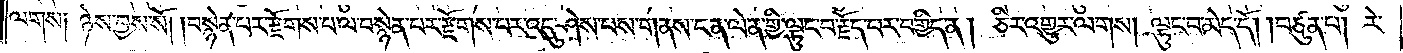ལགས༑ ཉེས་བྱས་སོ། །བསྙེན་པར་རྫོགས་པ་ལ་བསྙེན་པར་རྫོགས་པར་འདུ་ཤེས་པས་གནས་ངན་ལེན་གྱི་ལྟུང་བ་རྗོད་པར་བགྱིད་ན། ཅིར་འགྱུར་ལགས། ལྟུང་བ་མེད་དོ། །བཙུན་པ། རེ་
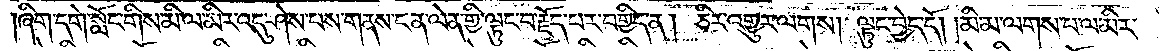།ཞིག་དགེ་སློང་གིས་མི་ལ་མིར་འདུ་ཤེས་པས་གནས་ངན་ལེན་གྱི་ལྟུང་བ་རྗོད་པར་བགྱིད་ན། ཅིར་འགྱུར་ལགས། ལྟུང་བྱེད་དོ། །མི་མ་ལགས་པ་ལ་མིར་
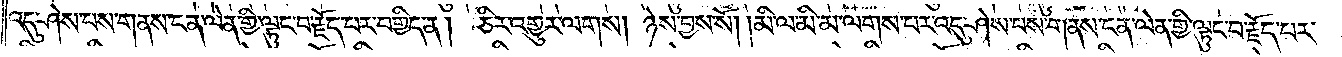འདུ་ཤེས་པས་གནས་ངན་ལེན་གྱི་ལྟུང་བ་རྗོད་པར་བགྱིད་ན། ཅིར་འགྱུར་ལགས། ཉེས་བྱས་སོ། །མི་ལ་མི་མ་ལགས་པར་འདུ་ཤེས་པས་གནས་ངན་ལེན་གྱི་ལྟུང་བ་རྗོད་པར་
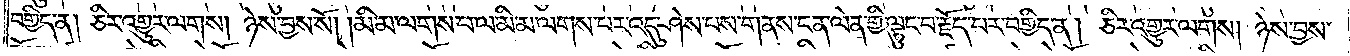བགྱིད་ན། ཅིར་འགྱུར་ལགས། ཉེས་བྱས་སོ། །མི་མ་ལགས་པ་ལ་མི་མ་ལགས་པར་འདུ་ཤེས་པས་གནས་ངན་ལེན་གྱི་ལྟུང་བ་རྗོད་པར་བགྱིད་ན། ཅིར་འགྱུར་ལགས། ཉེས་བྱས་
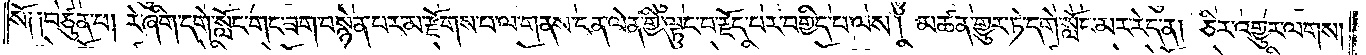སོ༑ ༑བཙུན་པ། རེ་ཞིག་དགེ་སློང་གང་ཟག་བསྙེན་པར་མ་རྫོགས་པ་ལ་གནས་ངན་ལེན་གྱི་ལྟུང་བ་རྗོད་པར་བགྱིད་པ་ལས། མཚན་གྱུར་ཏེ་དགེ་སློང་མར་རེད་ན། ཅིར་འགྱུར་ལགས།
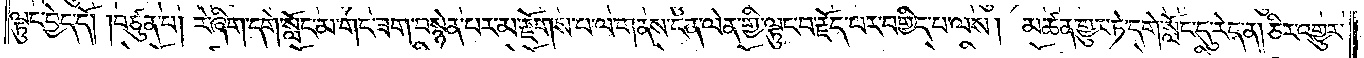ལྟུང་བྱེད་དོ། །བཙུན་པ། རེ་ཞིག་དགེ་སློང་མ་གང་ཟག་བསྙེན་པར་མ་རྫོགས་པ་ལ་གནས་ངན་ལེན་གྱི་ལྟུང་བ་རྗོད་པར་བགྱིད་པ་ལས། མཚན་རྒྱུར་ཏེ་དགེ་སློང་དུ་རེད་ན། ཅིར་འགྱུར་
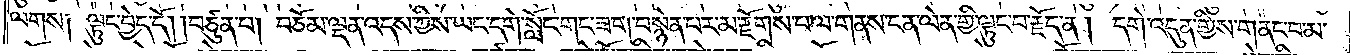ལགས༑ ལྟུང་བྱེད་དོ། །བཙུན་པ། བཅོམ་ལྡན་འདས་ཀྱིས་ཡང་དགེ་སློང་གང་ཟག་བསྙེན་པར་མ་རྫོགས་པ་ལ་གནས་ངན་ལེན་གྱི་ལྟུང་བ་རྗོད་ན། དགེ་འདུན་གྱིས་གནང་བ་མ་
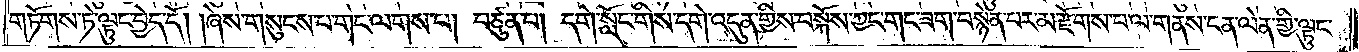གཏོགས་ཏེ་ལྟུང་བྱེད་དོ། །ཞེས་གསུངས་པ་གང་ལགས་པ། བཙུན་པ། དགེ་སློང་གིས་དགེ་འདུན་གྱིས་བསྐོས་ཀྱང་གང་ཟག་བསྙེན་པར་མ་རྫོགས་པ་ལ་གནས་ངན་ལེན་གྱི་ལྟུང་
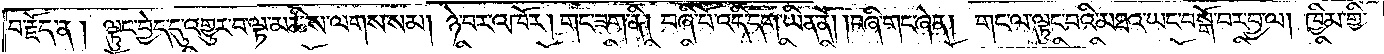བ་རྗོད་ན། ལྟུང་བྱེད་དུ་འགྱུར་བ་ལྟ་མཆིས་ལགས་སམ། ཉེ་བར་འཁོར། གང་ཟག་ནི། བཞི་པོ་འདི་དག་ཡིན་ནོ། །བཞི་གང་ཞེ་ན། གང་ལ་ལྟུང་བའི་མཐའ་ཡང་བསྒོ་བར་བྱ་ལ། ཁྱིམ་གྱི་
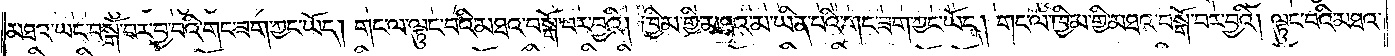མཐའ་ཡང་བསྒོ་བར་བྱ་བའི་གང་ཟག་ཀྱང་ཡོད། གང་ལ་ལྟུང་བའི་མཐའ་བསྒོ་བར་བྱའི། ཁྱིམ་གྱི་མཐའ་མ་ཡིན་པའི་གང་ཟག་ཀྱང་ཡོད། གང་ལ་ཁྱིམ་གྱི་མཐའ་བསྒོ་བར་བྱའི། ལྟུང་བའི་མཐའ་
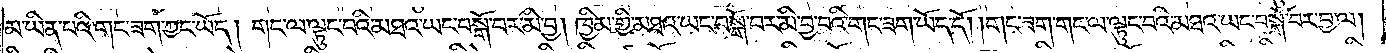མ་ཡིན་པའི་གང་ཟག་ཀྱང་ཡོད། གང་ལ་ལྟུང་བའི་མཐའ་ཡང་བསྒོ་བར་མི་བྱ། ཁྱིམ་གྱི་མཐའ་ཡང་བསྒོ་བར་མི་བྱ་བའི་གང་ཟག་ཡོད་དོ། །གང་ཟག་གང་ལ་ལྟུང་བའི་མཐའ་ཡང་བསྒོ་བར་བྱ་ལ།
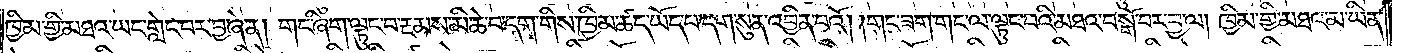ཁྱིམ་གྱི་མཐའ་ཡང་གླེང་བར་བྱ་ཞེ་ན། གང་ཞིག་ལྟུང་བ་རྔམས་མི་ཆེ་བ་དག་གིས་ཁྱིམ་ཚད་ཡོད་པ་དག་སུན་འབྱིན་པའོ། །གང་ཟག་གང་ལ་ལྟུང་བའི་མཐའ་བསྒོ་བར་བྱ་ལ། ཁྱིམ་གྱི་མཐའ་མ་ཡིན་
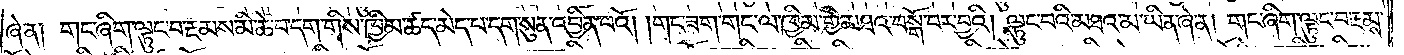ཞེ་ན། གང་ཞིག་ལྟུང་བ་རྔམས་མི་ཆེ་བ་དག་གིས་ཁྱིམ་ཚད་མེད་པ་དག་སུན་འབྱིན་པའོ། །གང་ཟག་གང་ལ་ཁྱིམ་གྱི་མཐའ་བསྒོ་བར་བྱའི། ལྟུང་བའི་མཐའ་མ་ཡིན་ཞེ་ན། གང་ཞིག་ལྟུང་བ་རྔམས་
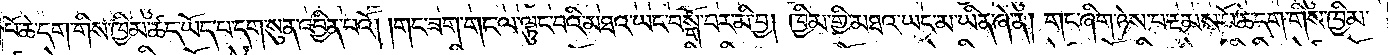པོ་ཆེ་དག་གིས་ཁྱིམ་ཚད་ཡོད་པ་དག་སུན་འབྱིན་པའོ། །གང་ཟག་གང་ལ་ལྟུང་བའི་མཐའ་ཡང་བསྒོ་བར་མི་བྱ། ཁྱིམ་གྱི་མཐའ་ཡང་མ་ཡིན་ཞེ་ན། གང་ཞིག་ཉེས་པ་རྔམས་པོ་ཆེ་དག་གིས་ཁྱིམ་
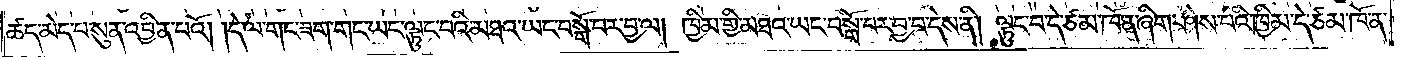ཚད་མེད་པ་སུན་འབྱིན་པའོ། །དེ་ལ་གང་ཟག་གང་ཡང་ལྟུང་བའི་མཐའ་ཡང་བསྒོ་བར་བྱ་ལ། ཁྱིམ་གྱི་མཐའ་ཡང་བསྒོ་བར་བྱ་བ་དེས་ནི། ལྟུང་བ་དེ་ཙམ་ཁོ་ན་ཞིག་ཤེས་པའི་ཁྱིམ་དེ་ཙམ་ཁོ་ན་
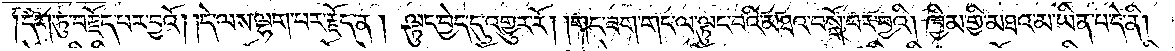དག་ཏུ་བརྗོད་པར་བྱའོ། །དེ་ལས་ལྷག་པར་རྗོད་ན། ལྟུང་བྱེད་དུ་འགྱུར་རོ། །གང་ཟག་གང་ལ་ལྟུང་བའི་མཐའ་བསྒོ་བར་བྱའི། ཁྱིམ་གྱི་མཐའ་མ་ཡིན་པ་དེ་ནི།
